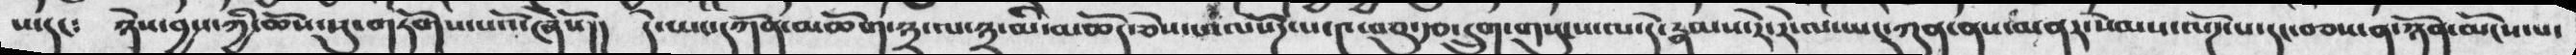པ་དང༴ ཉེས་བྱས་ཀྱི་ཆོས་སུ་གཏོགས་པའོ་ཞེསོ།། དེ་ཡང་དཀོན་མཆོག་༣་ལ་༣་མི་མཆོད་ཅེས་པ་ལསོཌ་པ་༤་བཅུ་རྩ་དྲུག་གསུངས་ལ་དེ་རྣམས་རེ་རེ་ལ་ཡང་ཀུན་ནས་མནར་སེམས་ལོཌ་པ་དང་བཅས་ན་ཉོན་མོངས་པ་
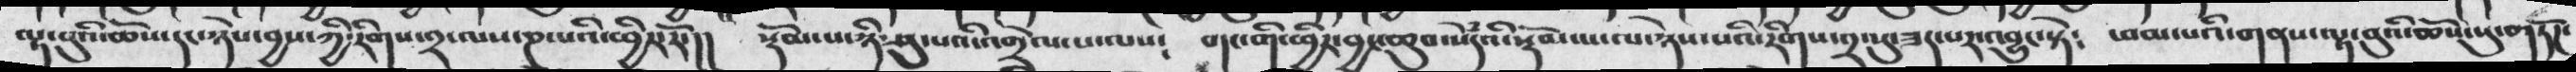ལྟ་བུའི་ཆོས་དང་ཉེས་བྱས་ཀྱི་རིགས་༢་ལས་ཎ་པའི་ཕྱིར་རོ་།། སྡོམ་པ་ཉི་ཤུ་པའི་འགྲེལ་པ་ལས༴ གང་གི་ཕྱིར་བྱང་ཆུབ་སེཾདའི་སྡོམ་པ་ལ་ཉེས་པའི་རིགས་༢་སུ་ཟད་པར་འབྱུང་སྟེ༴ ཕམ་པའི་གནས་ལྟ་བུའི་ཆོས་སུ་གཏོཌ་
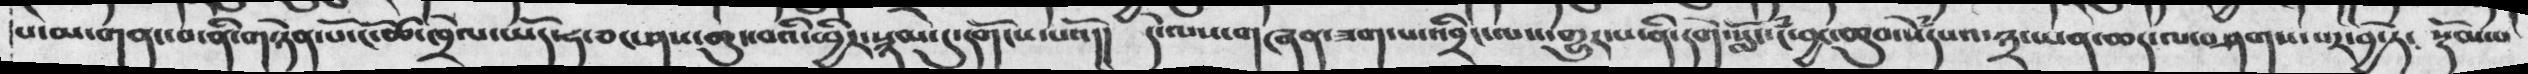པ་མ་གནང་བ་ནི་གཉེན་པོ་ངོ་ཚ་ཁྲེལ་ཡོད་ཧ་ཅང་ཤས་ཆུང་བའི་ཕྱིར་སྙམ་དུ་དགོངས་པའོ།།  དེ་ལས་གཞན་ཟག་པ་འབྲིང་ལས་གྱུར་པ་ནི་དགེ་སློང་ངཾ་བྱང་ཆུབ་སེཾདཔའ་༣་ཡན་ཆད་ལ་བཤགས་པར་བྱ་ཏེ༴ སྡོམ་པ
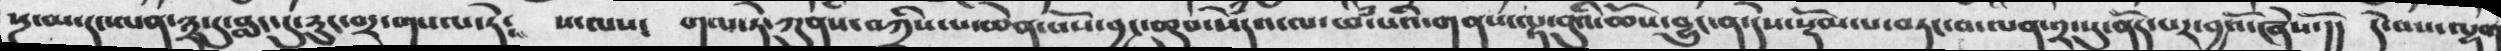སྔ་མ་དང་ལན་༣་དུ་བླང་དུ་རུང་བར་གསལ་ཏེ༴ ས་ལས་ གལ་ཏེ་ཀུནས་བཀྲིས་པ་ཆེན་པོས་བྱང་ཆུབ་སེཾདའ་ལ་ཕཾ་པའི་གནས་ལྟ་བུའི་ཆོས་བྱུང་ན་དེས་སྡོམ་པ་བཏང་བ་ལན་༢་སུ་ནོད་པར་བྱའོ་ཞེསོ་།། དེ་བས་ལྷག
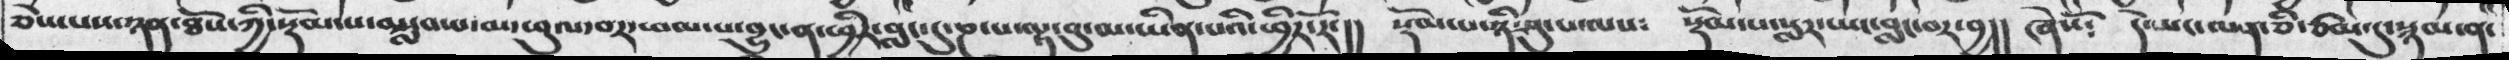ཅེས་པས་ཉན་ཐོས་ཀྱི་སྡོམ་པ་བསླབ་པ་མ་ཕུལ་བར་ཕམ་པ་བྱུང་ན་ཕྱིར་བླང་དུ་ཎ་པ་ལྟ་བུ་མ་ཡིན་པའི་ཕྱིར་རོ་།། སྡོམ་པ་ཉི་ཤུ་པ་ལས༴ སྡོམ་པ་སླར་ཡང་བླང་བར་བྱ།། ཞེསོ༴ དེ་ཡང་ལན་ཅི་ཙམ་དུ་སྙམ་ན་
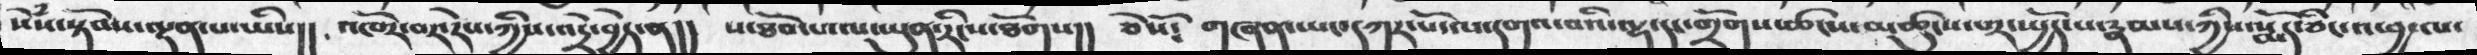སེྃས་སྟོབས་ལྡན་པ་ཡིས།།  འཁོར་བར་རེས་ཀྱིས་འདྲེ་བྱེད་ན།།   ས་ཐོབ་པ་ལ་ཡུན་རིངས་ཐོགས།།   ཅེསོ༴   གཞན་་ཡང་དཀར་པོ་ལ་དགའ་བའི་ལྷ་དང་གྲོགས་ཚངས་མཚུངས་པར་ཡྱོད་པ་རྣམས་ཀྱིས་སྨོད་ཅིང་འཕྱ་ལ་
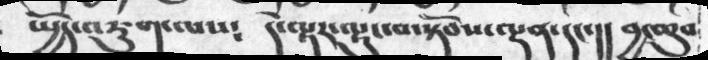ཡྱོད་འཇུག་ལས༴     དེ་ལྟར་ལྟུང་བ་སྟོབས་ལྡན་དང་།།    བྱང་ཆུབ་
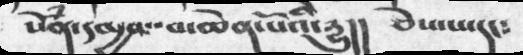སེྃན་དམྱལ་བ་ཆེན་པོའི་དྱུ།།    ཅེས་པ་དང༴
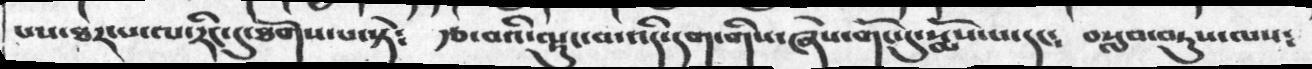པས་ཐར་པ་ལ་རིང་དུ་ཐོགས་པ་སྟེ༴ རྩ་བའི་ལྟུང་བ་འདི་དག་གིས་ཞེས་གོང་དུ་སྨོས་པ་དང༴ བསླབ་བཏུས་ལས༴
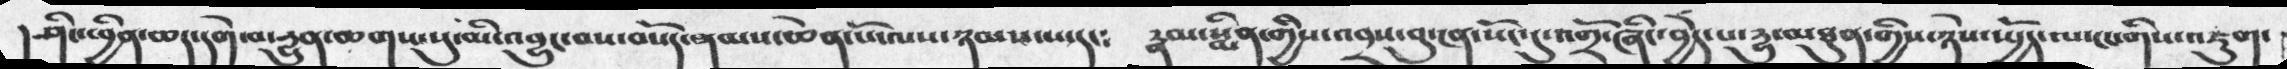།ཤིང་ཕྱིན་ཆད་དགེ་བ་དྱུན་ཆགས་སུ་མི་འབྱུང་བས་བསོད་ནམས་ཆེན་པོ་ལས་ཉམས་པ་དང༴ རྣམ་སྨིན་གྱིས་འབྲས་བུ་ངན་སོང་དུ་འགྲོ་ཞིང་བྱེད་པ་དྱུ་མཐུན་གྱིས་ཉེས་སྤྱོད་ལ་ངང་གིས་འཇུག་
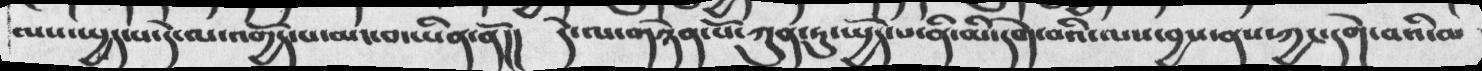ལས་སྤྱད་པ་དེ་ལ་འགྱོད་པ་མང་བ་ཡིན་ནོ།།  དེ་ལ་གཉེན་པོ་ཀུན་ཏུ་སྤྱོད་པ་ནི་མི་དགེ་བའི་ལས་བྱས་ནས་ཀྱང་དགེ་བའི་མ
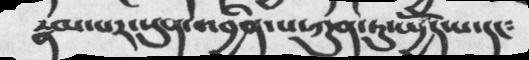རྣམ་པར་སུན་འབྱིན་པ་ཀུན་ཏུ་སྤྱོད་པ་དང༴
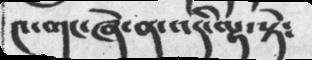༤་གང་ཞེ་ན་འདི་ལྟ་སྟེ༴
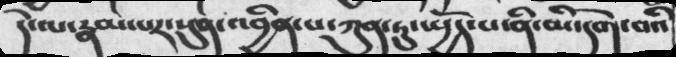དེ་ལ་རྣམ་པར་སུན་འབྱིན་པ་ཀུན་ཏུ་སྤྱོད་པ་ནི་མི་དགེ་བའི
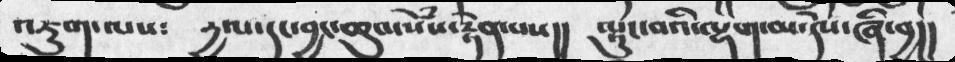འཇུག་ལས༴  དྱལ་དང་བྱང་ཆུབ་སེཾས་རྟེན་པས།།  ལྟུང་བའི་ལྷག་མ་དེས་ཞི་བྱ།།
